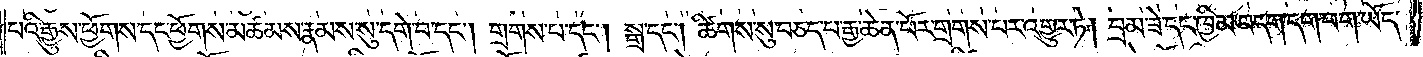པའི་རྒྱུས་ཕྱོགས་དང་ཕྱོགས་མཚམས་རྣམས་སུ་དགེ་བ་དང༌། གྲགས་པ་དང༌། སྒྲ་དང༌། ཚིགས་སུ་བཅད་པ་རྒྱ་ཆེན་པོར་གྲགས་པར་འགྱུར་ཏེ། བྲམ་ཟེ་དང་ཁྱིམ་བདག་དག་བག་ཡོད་
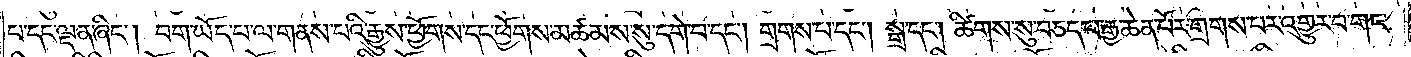པ་དང་ལྡན་ཞིང༌། བག་ཡོད་པ་ལ་གནས་པའི་རྒྱུས་ཕྱོགས་དང་ཕྱོགས་མཚམས་སུ་དགེ་བ་དང༌། གྲགས་པ་དང༌། སྒྲ་དང༌། ཚིགས་སུ་བཅད་པ་རྒྱ་ཆེན་པོར་གྲགས་པར་འགྱུར་བ་གང་
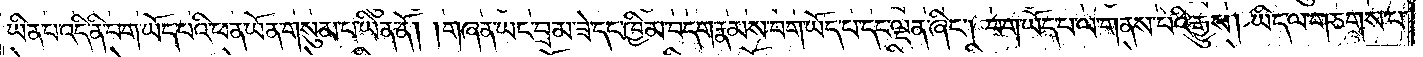ཡིན་པ་འདི་ནི་བག་ཡོད་པའི་ཕན་ཡོན་གསུམ་པ་ཡིན་ནོ། །གཞན་ཡང་བྲམ་ཟེ་དང་ཁྱིམ་བདག་རྣམས་བག་ཡོད་པ་དང་ལྡན་ཞིང༌། བག་ཡོད་པ་ལ་གནས་པའི་རྒྱུས། ཡིད་ལ་གཅགས་པ་
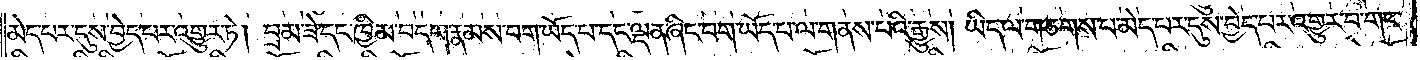མེད་པར་དུས་བྱེད་པར་འགྱུར་ཏེ། བྲམ་ཟེ་དང་ཁྱིམ་བདག་རྣམས་བག་ཡོད་པ་དང་ལྡན་ཞིང་བག་ཡོད་པ་ལ་གནས་པའི་རྒྱུས། ཡིད་ལ་གཅགས་པ་མེད་པར་དུས་བྱེད་པར་འགྱུར་བ་གང་
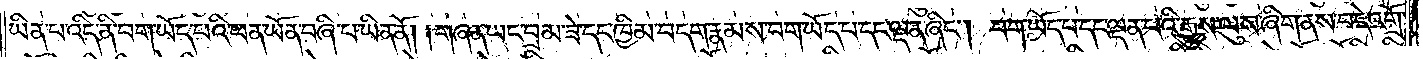ཡིན་པ་འདི་ནི་བག་ཡོད་པའི་ཕན་ཡོན་བཞི་པ་ཡིན་ནོ། །གཞན་ཡང་བྲམ་ཟེ་དང་ཁྱིམ་བདག་རྣམ་བག་ཡོད་པ་དང་ལྡན་ཞིང༌། བག་ཡོད་པ་དང་ལྡན་པའི་རྒྱུས་ལུས་ཞིག་ནས་བདེ་འགྲོ་
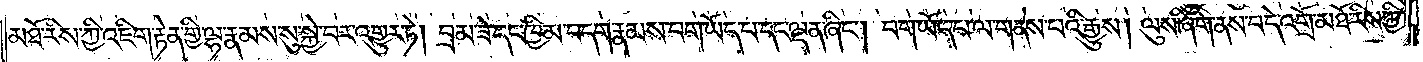མཐོ་རིས་ཀྱི་འཇིག་རྟེན་གྱི་ལྷ་རྣམས་སུ་སྐྱེ་བར་འགྱུར་ཏེ། བྲམ་ཟེ་དང་ཁྱིམ་བདག་རྣམས་བག་ཡོད་པ་དང་ལྡན་ཞིང༌། བག་ཡོད་པ་ལ་གནས་པའི་རྒྱུས། ལུས་ཞིག་ནས་བདེ་འགྲོ་མཐོ་རིས་ཀྱི་
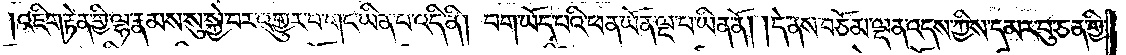འཇིག་རྟེན་གྱི་ལྷ་རྣམས་སུ་སྐྱེ་བར་འགྱུར་བ་གང་ཡིན་པ་འདི་ནི། བག་ཡོད་པའི་ཕན་ཡོན་ལྔ་པ་ཡིན་ནོ། །དེ་ནས་བཅོམ་ལྡན་འདས་ཀྱིས་དམར་བུ་ཅན་གྱི་
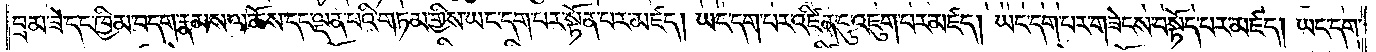བྲམ་ཟེ་དང་ཁྱིམ་བདག་རྣམས་ལ་ཆོས་དང་ལྡན་པའི་གཏམ་གྱིས་ཡང་དག་པར་སྟོན་པར་མཛད། ཡང་དག་པར་འཛིན་དུ་འཇུག་པར་མཛད། ཡང་དག་པར་གཟེངས་བསྟོད་པར་མཛད། ཡང་དག་
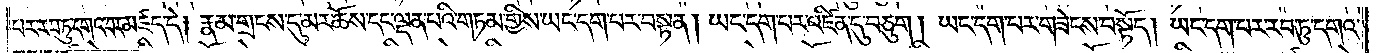པར་རབ་ཏུ་དགའ་བར་མཛད་དེ། རྣམ་གྲངས་དུ་མར་ཆོས་དང་ལྡན་པའི་གཏམ་གྱིས་ཡང་དག་པར་བསྟན། ཡང་དག་པར་འཛིན་དུ་བཅུག །ཡང་དག་པར་གཟེངས་བསྟོད། ཡང་དག་པར་རབ་ཏུ་དགའ་
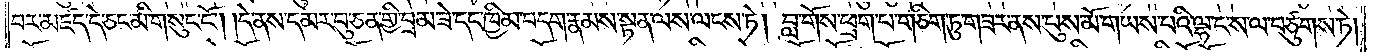བར་མཛད་དེ་ཅང་མི་གསུང་ངོ༌། །དེ་ནས་དམར་བུ་ཅན་གྱི་བྲམ་ཟེ་དང་ཁྱིམ་བདག་རྣམས་སྟན་ལས་ལངས་ཏེ། བླ་གོས་ཕྲག་པ་གཅིག་ཏུ་གཟར་ནས་པུས་མོ་གཡས་པའི་ལྷང་ས་ལ་བཙུགས་ཏེ།
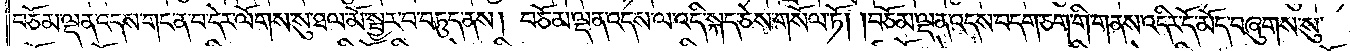བཅོམ་ལྡན་འདས་གང་ན་བ་དེར་ལོངས་སུ་ཐལ་མོ་སྦྱར་བ་བཏུད་ནས། བཅོམ་ལྡན་འདས་ལ་འདི་སྐད་ཅེས་གསོལ་ཏོ། །བཅོམ་ལྡན་འདས་བདག་གི་གནས་འདིར་དོ་མོད་བཞུགས་སུ་
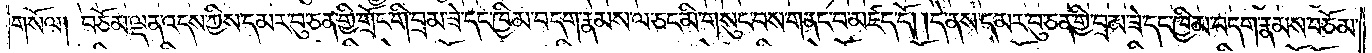གསོལ། བཅོམ་ལྡན་འདས་ཀྱིས་དམར་བུ་ཅན་གྱི་གྲོང་གི་བྲམ་ཟེ་དང་ཁྱིམ་བདག་རྣམས་ལ་ཅང་མི་གསུང་བས་གནང་བ་མཛད་དོ། །དེ་ནས་དམར་བུ་ཅན་གྱི་བྲམ་ཟེ་དང་ཁྱིམ་བདག་རྣམས་བཅོམ་
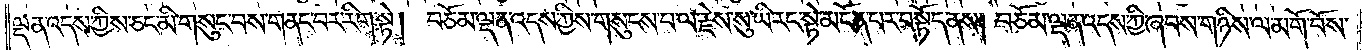ལྡན་འདས་ཀྱིས་ཅང་མི་གསུང་བས་གནང་བར་རིག་སྟེ། བཅོམ་ལྡན་འདས་ཀྱིས་གསུངས་པ་ལ་རྗེས་སུ་ཡི་རང་སྟེ་མངོན་པར་བསྟོད་ནས། བཅོམ་ལྡན་འདས་ཀྱི་ཞབས་གཉིས་ལ་མགོ་བོས་
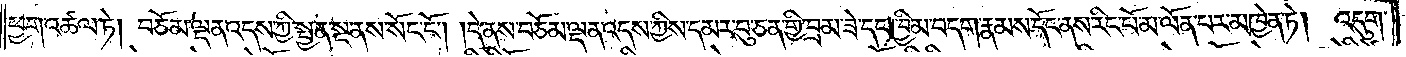ཕྱག་འཚལ་ཏེ། བཅོམ་ལྡན་འདས་ཀྱི་སྤྱན་སྔ་ནས་སོང་ངོ༌། །དེ་ནས་བཅོམ་ལྡན་འདས་ཀྱིས་དམར་བུ་ཅན་གྱི་བྲམ་ཟེ་དང་ཁྱིམ་བདག་རྣམས་དོང་ནས་རིང་པོ་མ་ལོན་པར་མཁྱེན་ཏེ། འདུག་
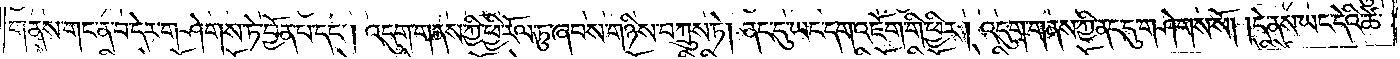གནས་གང་ན་བ་དེར་གཤེགས་ཏེ་བྱོན་པ་དང༌། འདུག་གནས་ཀྱི་ཕྱི་རོལ་ཏུ་ཞབས་གཉིས་བཀྲུས་ཏེ། ནང་དུ་ཡང་དག་འཇོག་གི་ཕྱིར། འདུག་གནས་ཀྱི་ནང་དུ་གཤེགས་སོ། །དེ་ནས་ཡང་དེའི་ཚེ་
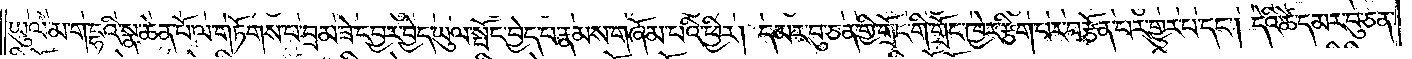ཡུལ་མ་ག་དྷའི་སྣ་ཆེན་པོ་ལ་གཏོགས་པ་བྲམ་ཟེ་དབྱར་བྱེད་ཡུལ་སྤོང་བྱེད་པ་རྣམས་གཞོམ་པའི་ཕྱིར། དམར་བུ་ཅན་གྱི་གྲོང་གི་གྲོང་ཁྱེར་རྩིག་པར་བརྩོན་པར་གྱུར་པ་དང༌། དེའི་ཚེ་དམར་བུ་ཅན་
